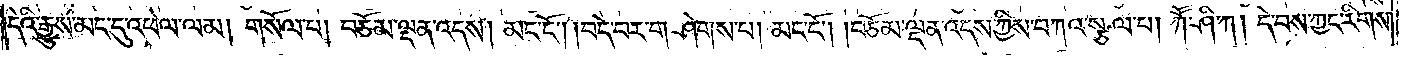དེའི་རྒྱུས་མང་དུ་འཕེལ་ལམ། གསོལ་པ། བཅོམ་ལྡན་འདས། མང་ངོ༌། །བདེ་བར་གཤེགས་པ། མང་ངོ༌། །བཅོམ་ལྡན་འདས་ཀྱིས་བཀའ་སྩལ་པ། ཀཽ་ཤི་ཀ། དེ་བས་ཀྱང་རིགས་
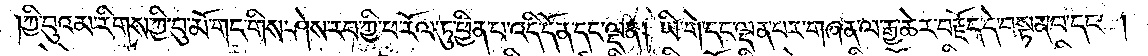ཀྱི་བུའམ་རིགས་ཀྱི་བུ་མོ་གང་གིས་ཤེས་རབ་ཀྱི་ཕ་རོལ་ཏུ་ཕྱིན་པ་འདི་དོན་དང་ལྡན། ཡི་གེ་དང་ལྡན་པར་གཞན་ལ་རྒྱ་ཆེར་བརྗོད་དེ་བསྟན་པ་དང༌།
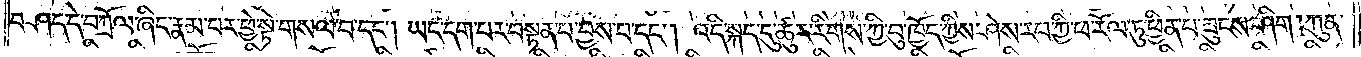བཤད་དེ་བཀྲོལ་ཞིང་རྣམ་པར་ཕྱེ་སྟེ་གསལ་བ་དང༌། ཡང་དག་པར་བསྟན་པ་བྱས་པ་དང༌། འདི་སྐད་དུ་ཚུར་རིགས་ཀྱི་བུ་ཁྱོད་ཀྱིས་ཤེས་རབ་ཀྱི་ཕ་རོལ་ཏུ་ཕྱིན་པ་ཟུངས་ཤིག །ཀུན་
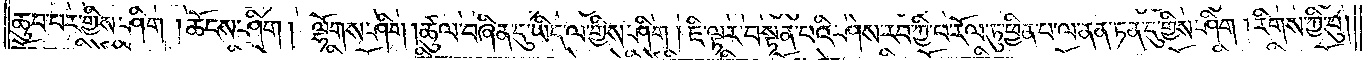ཆུབ་པར་གྱིས་ཤིག །ཆོངས་ཤིག། ལྷོགས་ཤིག། ཚུལ་བཞིན་དུ་ཡིད་ལ་གྱིས་ཤིག །ཇི་ལྟར་བསྟན་པའི་ཤེས་རབ་ཀྱི་ཕ་རོལ་ཏུ་ཕྱིན་པ་ལ་ནན་ཏན་ཏུ་གྱིས་ཤིག །རིགས་ཀྱི་བུ།
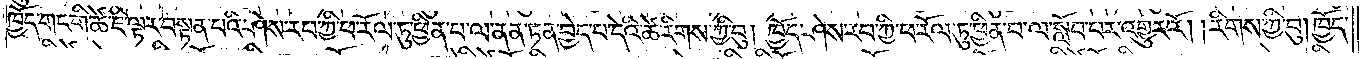ཁྱོད་གང་གི་ཚེ་ཇི་ལྟར་བསྟན་པའི་ཤེས་རབ་ཀྱི་ཕ་རོལ་ཏུ་ཕྱིན་པ་ལ་ནན་ཏན་བྱེད་པ་དེའི་ཚེ་རིགས་ཀྱི་བུ། ཁྱོད་ཤེས་རབ་ཀྱི་ཕ་རོལ་ཏུ་ཕྱིན་པ་ལ་སློབ་པར་འགྱུར་རོ། །རིགས་ཀྱི་བུ། ཁྱོད་
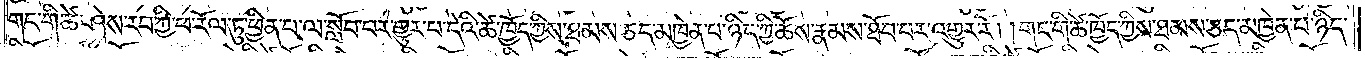གང་གི་ཚེ་ཤེས་རབ་ཀྱི་ཕ་རོལ་ཏུ་ཕྱིན་པ་ལ་སློབ་པར་གྱུར་པ་དེའི་ཚེ་ཁྱོད་ཀྱིས་ཐམས་ཅད་མཁྱེན་པ་ཉིད་ཀྱི་ཆོས་རྣམས་ཐོབ་པར་འགྱུར་རོ། །གང་གི་ཚེ་ཁྱོད་ཀྱིས་ཐམས་ཅད་མཁྱེན་པ་ཉིད་
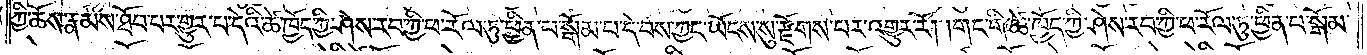ཀྱི་ཆོས་རྣམས་ཐོབ་པར་གྱུར་པ་དེའི་ཚེ་ཁྱོད་ཀྱི་ཤེས་རབ་ཀྱི་ཕ་རོལ་ཏུ་ཕྱིན་པ་སྒོམ་པ་དེ་བས་ཀྱང་ཡོངས་སུ་རྫོགས་པར་འགྱུར་རོ། །གང་གི་ཚེ་ཁྱོད་ཀྱི་ཤེས་རབ་ཀྱི་ཕ་རོལ་ཏུ་ཕྱིན་པ་སྒོམ་
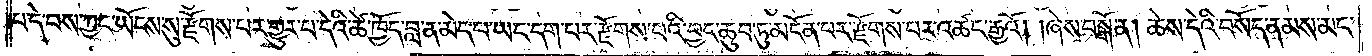པ་དེ་བས་ཀྱང་ཡོངས་སུ་རྫོགས་པར་གྱུར་པ་དེའི་ཚེ་ཁྱོད་བླ་ན་མེད་པ་ཡང་དག་པར་རྫོགས་པའི་བྱང་ཆུབ་ཏུ་མངོན་པར་རྫོགས་པར་འཚང་རྒྱའོ། །ཞེས་བསྒོ་ན། ཆེས་དེའི་བསོད་ནམས་མང་
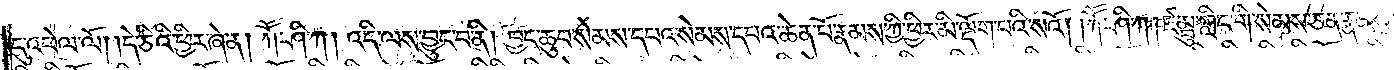དུ་འཕེལ་ལོ། །དེ་ཅིའི་ཕྱིར་ཞེ་ན། ཀཽ་ཤི་ཀ། འདི་ལས་བྱུང་བ་ནི། བྱང་ཆུབ་སེམས་དཔའ་སེམས་དཔའ་ཆེན་པོ་རྣམས་ཀྱི་ཕྱིར་མི་ལྡོག་པའི་སའོ། །ཀཽ་ཤི་ཀ། ཛམྦུ་གླིང་གི་སེམས་ཅན་རྣམས་
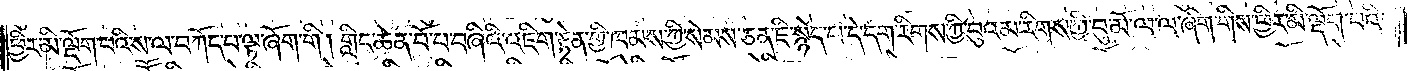ཕྱིར་མི་ལྡོག་པའི་ས་ལ་བཀོད་པ་ལྟ་ཞོག་གི །གླིང་ཆེན་པོ་པ་བཞིའི་འཇིག་རྟེན་གྱི་ཁམས་ཀྱི་སེམས་ཅན་ཇི་སྙེད་པ་དེ་དག་རིགས་ཀྱི་བུའམ་རིགས་ཀྱི་བུ་མོ་ལ་ལ་ཞིག་གིས་ཕྱིར་མི་ལྡོག་པའི་
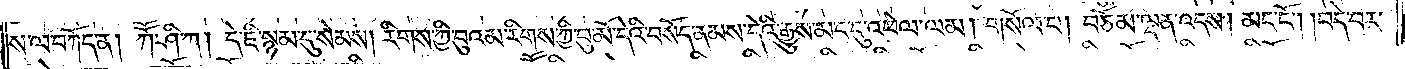ས་ལ་བཀོད་ན། ཀཽ་ཤི་ཀ། དེ་ཇི་སྙམ་དུ་སེམས། རིགས་ཀྱི་བུའམ་རིགས་ཀྱི་བུ་མོ་དེའི་བསོད་ནམས་དེའི་རྒྱུས་མང་དུ་འཕེལ་ལམ། གསོལ་པ། བཅོམ་ལྡན་འདས། མང་ངོ༌། །བདེ་བར་
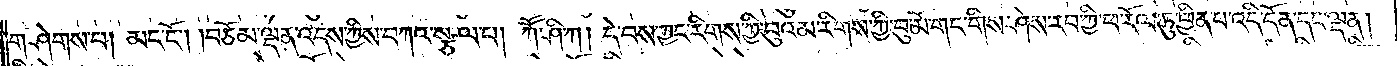གཤེགས་པ། མང་ངོ༌། །བཅོམ་ལྡན་འདས་ཀྱིས་བཀའ་སྩལ་པ། ཀཽ་ཤི་ཀ། དེ་བས་ཀྱང་རིགས་ཀྱི་བུའམ་རིགས་ཀྱི་བུ་མོ་གང་གིས་ཤེས་རབ་ཀྱི་ཕ་རོལ་ཏུ་ཕྱིན་པ་འདི་དོན་དང་ལྡན།
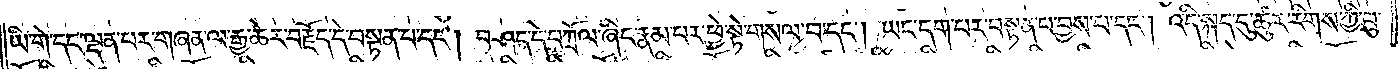ཡི་གེ་དང་ལྡན་པར་གཞན་ལ་རྒྱ་ཆེར་བརྗོད་དེ་བསྟན་པ་དང༌། བཤད་དེ་བཀྲོལ་ཞིང་རྣམ་པར་ཕྱེ་སྟེ་གསལ་བ་དང༌། ཡང་དག་པར་བསྟན་པ་བྱས་པ་དང༌། འདི་སྐད་དུ་ཚུར་རིགས་ཀྱི་བུ་
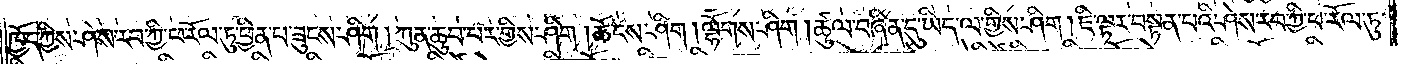ཁྱོད་ཀྱིས་ཤེས་རབ་ཀྱི་ཕ་རོལ་ཏུ་ཕྱིན་པ་ཟུངས་ཤིག །ཀུན་ཆུབ་པར་གྱིས་ཤིག །ཆོངས་ཤིག། ལྷོགས་ཤིག །ཚུལ་བཞིན་དུ་ཡིད་ལ་གྱིས་ཤིག། ཇི་ལྟར་བསྟན་པའི་ཤེས་རབ་ཀྱི་ཕ་རོལ་ཏུ་
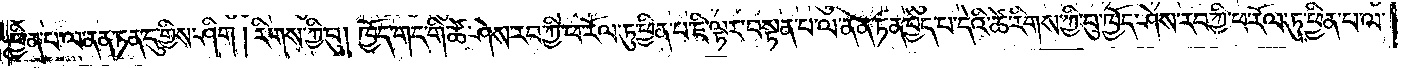ཕྱིན་པ་ལ་ནན་ཏན་དུ་གྱིས་ཤིག །རིགས་ཀྱི་བུ། ཁྱོད་གང་གི་ཚེ་ཤེས་རབ་ཀྱི་ཕ་རོལ་ཏུ་ཕྱིན་པ་ཇི་ལྟར་བསྟན་པ་ལ་ནན་ཏན་བྱེད་པ་དེའི་ཚེ་རིགས་ཀྱི་བུ་ཁྱོད་ཤེས་རབ་ཀྱི་ཕ་རོལ་ཏུ་ཕྱིན་པ་ལ་
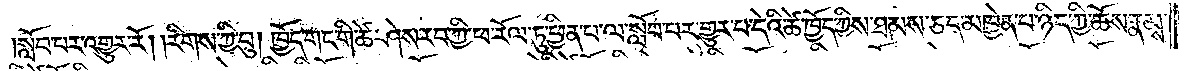སློབ་པར་འགྱུར་རོ། །རིགས་ཀྱི་བུ། ཁྱོད་གང་གི་ཚེ་ཤེས་རབ་ཀྱི་ཕ་རོལ་ཏུ་ཕྱིན་པ་ལ་སློབ་པར་གྱུར་པ་དེའི་ཚེ་ཁྱོད་ཀྱིས་ཐམས་ཅད་མཁྱེན་པ་ཉིད་ཀྱི་ཆོས་རྣམས་
